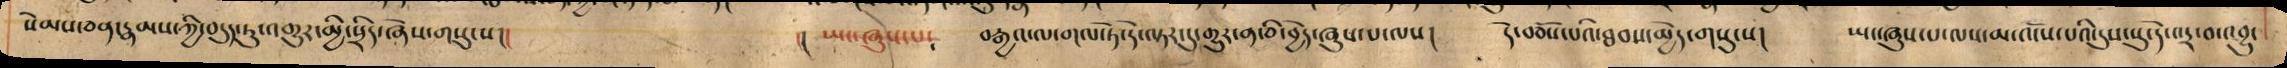སེམས་ཅན་རྣམས་ཀྱི་བདུད་ཏུ་འགྱུར་མྱི་སྲིད་ཞེས་གསུངས།། །། ཡང་ཞུས་པ་ བརྒྱའ་ལ་གལ་ཏེ་དེ་ལྟར་དུ་གྱུར་ན་ཅི་བྱེད་ཞུས་པ་ལས། དེ་བཅོས་པའི་ཐབས་མྱེད་གསུངས། ཡང་ཞུས་པ་ལས་མ་འོངས་པའི་དུས་སུ་དེ་འདྲ་བ་འབྱུང
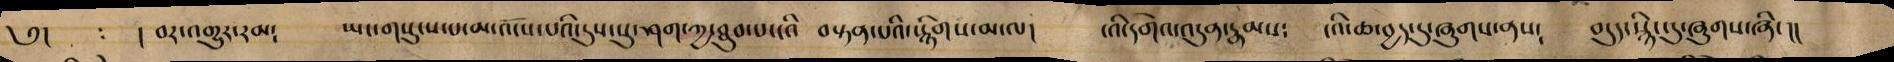༅། ། བར་འགྱུར་རམ་ ཡང་གསུངས་པ་མ་འོངས་པའི་དུས་སུ་ཤག་ཀྱ་ཐུབ་པ་ངའི བསྟན་པའི་སྙིགས་མ་ལ། ངའི་དགེའ་འདུན་རྣམས་ ངའི་ཆབྱད་དུ་ཞུགས་ནས་ བདུད་སྣིང་དུ་ཞུགས་ཞིང།།
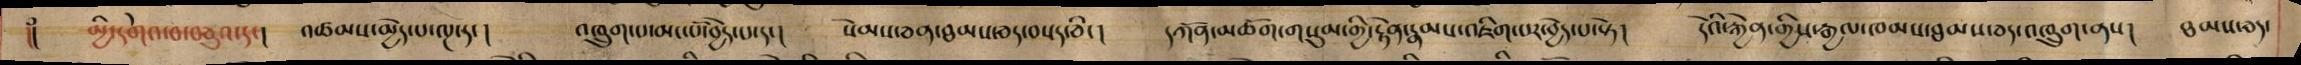།། མྱི་དགེའ་བ་བཅུའ་དང། འཚམས་མྱེད་པ་ལྔ་དང། འཁྲུག་པ་མང་པོ་བྱེད་པ་དང། སེམས་ཅན་ཐམས་ཅད་བསད་ཅིང། དཀོན་མཆོག་གསུམ་གྱི་རྟེན་རྣམས་འཇིག་པར་བྱེད་པ་སྟེ། དེའི་རྐྱེན་གྱིས་རྒྱལ་ཁམས་ཐམས་ཅད་འཁྲུག་ནས། ཐམས་ཅད་
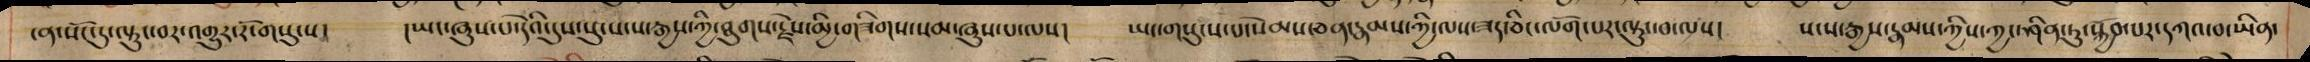ངན་སོང་དུ་ལྟུང་བར་འགྱུར་རོ་གསུངས། །ཡང་ཞུས་པ་དེའི་དུས་སུ་སངས་རྒྱས་ཀྱི་ཐུགས་རྗེས་མྱི་གཟིགས་སམ་ཞུས་པ་ལས། ཡང་གསུངས་པ་སེམས་ཅན་རྣམས་ཀྱི་ལས་ཟད་ཅིང་ལོག་པར་ལྟུང་བ་ལས། སངས་རྒྱས་རྣམས་ཀྱིས་ཀྱང་ཤིན་ཏུ་སྐྱོབ་པར་དཀའ་བ་ཡིན་
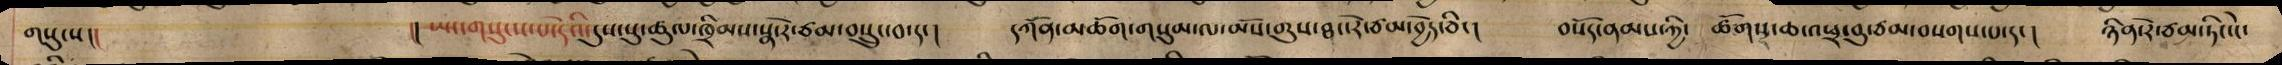གསུངས།། །། ཡང་གསུངས་པ་དེའི་དུས་སུ་ཚུལ་ཁྲིམས་སྣ་རེ་ཙམ་བསྲུང་བ་དང། དཀོན་མཆོག་གསུམ་ལ་མོས་གུས་ཐང་རེ་ཙམ་བྱེད་ཅིང། བསོད་ནམས་ཀྱི་ ཚོགས་ཆ་འཕྲ་བུ་ཙམ་བསགས་པ་དང། ཉིན་རེ་ཙམ་ཏིང་ངེ་
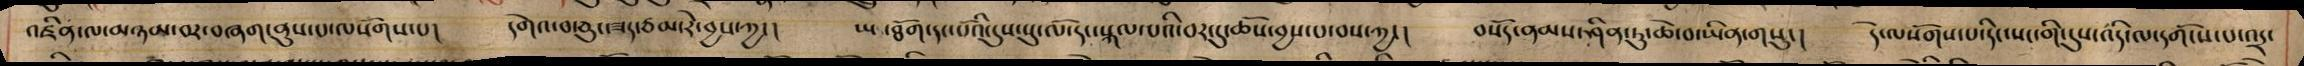འཛིན་ལ་མཉམ་བར་བཞག་ནུས་ལསོགས་པ། དགེའ་བ་ཅུང་ཟད་ཙམ་རེ་བྱས་ཀྱང། ཡ་ཐོག་དང་པོའི་དུས་སུ་ལོ་དང་སྐལ་པའི་བར་དུ་ཆོས་བྱས་པ་བས་ཀྱང། བསོད་ནམས་ཤིན་ཏུ་ཆེ་བ་ཡིན་གསུང། དེ་ལསོགས་པ་དིང་སང་གི་དུས་འདི་ལ་དགོངས་པ་འདྲ་
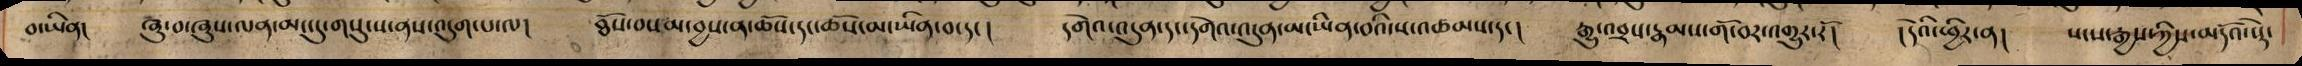བ་ཡིན། ཞུ་བ་ཞུས་ལན་མང་དུ་གསུངས་ནས་འདུག་པ་ལ། ཐོས་བསམ་བྱས་ན་ཆོས་དང་ཆོས་མ་ཡིན་བ་དང། དགེའ་འདུན་དང་དགེའ་འདུན་མ་ཡིན་བའི་ས་འཚམས་དང། རྒྱུ་འབྲས་རྣམས་གོ་བར་འགྱུར་རོ། །དེའི་ཕྱིར་ན། སངས་རྒྱས་ཀྱིས་མདོའ་སྡེ་
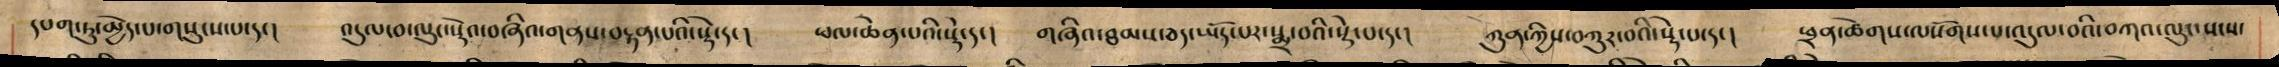དཔག་ཏུ་མྱེད་པ་གསུངས་པ་དང། འདུལ་བ་ལུང་སྡེའ་བཞིའ་གནས་བརྟན་པའི་སྡེ་དང། ཕལ་ཆེན་པའི་སྡེ་དང། གཞིའ་ཐམས་ཅད་ཡོད་པར་སྨྲ་བའི་སྡེ་པ་དང། ཀུན་ཀྱིས་བཀུར་བའི་སྡེ་པ་དང། ཕྲན་ཚེགས་ལསོགས་པ་འདུལ་བའི་བཀའ་ལུང་སངས་
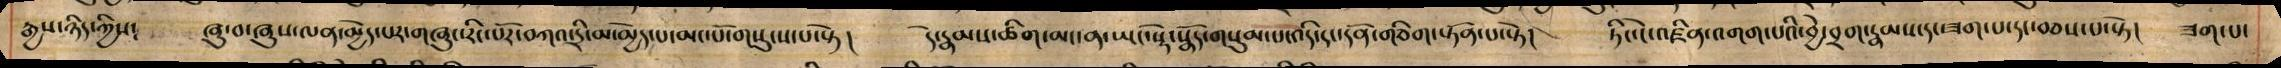རྒྱས་ཉིད་ཀྱིས་ ཞུ་བ་ཞཱུས་ལན་མྱེད་པར་གཞུང་རིང་པོར་བཀའ་དྲི་མ་མྱེད་པ་མང་པོ་གསུངས་པ་སྟེ། དེ་རྣམས་ཚིག་མང་ན་ཡང་སྡེ་སྣོད་གསུམ་པ་འདི་དང་དོན་གཅིག་སྟོན་པ་སྟེ། ཏིང་ངེ་འཛིན་འགག་པའི་བྱེ་བྲག་རྣམས་དང་ཟག་པ་དང་བཅས་པ་སྟེ། ཟག་པ་
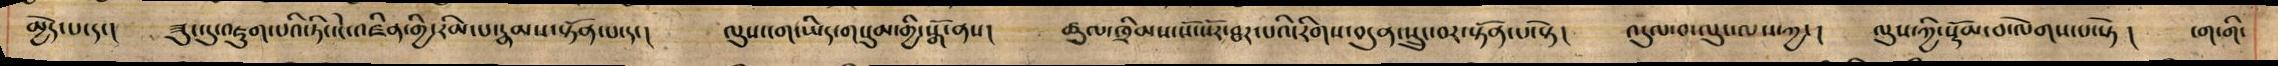མྱེད་པ་དང། ཟུང་དུ་འཇུག་པའི་ཏིང་ངེ་འཛིན་གྱི་རིམ་པ་རྣམས་སྟོན་པ་དང། ལུས་ངག་ཡིད་གསུམ་གྱི་སྒོ་ནས། ཚུལ་ཁྲིམས་སོ་སོར་ཐར་པའི་རིགས་བདུན་སྲུང་བར་སྟོན་པ་སྟེ། འདུལ་བ་ལུང་ལས་ཀྱང། ལུས་ཀྱི་སྡོམ་བ་ལེགས་པ་སྟེ ། ངག་གི་
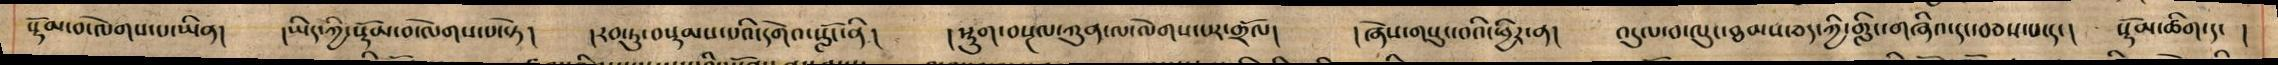སྡོམ་བ་ལེགས་པ་ཡིན། །ཡིད་ཀྱི་སྡོམ་བ་ལེགས་པ་སྟེ། །རབ་ཏུ་བསྡམས་པའི་དགེའ་སློང་ནི། །སྡུག་བསྔལ་ཀུན་ལ་ལེགས་པར་གྲོལ། །ཞེས་གསུང་བའི་ཕྱིར་ན། འདུལ་བ་ལུང་ཐམས་ཅད་ཀྱི་གླིང་གཞིའ་དང་བབས་པ་དང། སྡོམ་ཚིག་དང །
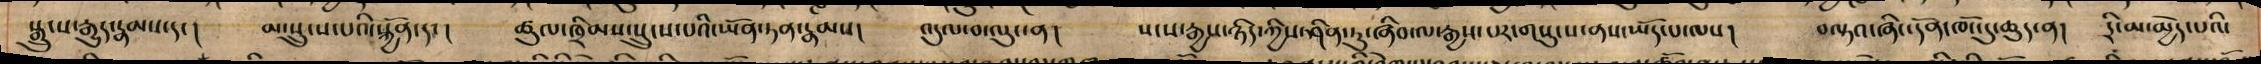སྒྲུ་ས་རྒྱུད་རྣམས་དང། མ་སྲུངས་པའི་སྐྱོན་དང། ཚུལ་ཁྲིམས་སྲུངས་པའི་ཡོན་ཏན་རྣམས། འདུལ་བ་ལུང་ན། སངས་རྒྱས་ཉིད་ཀྱིས་ཤིན་ཏུ་ཞིབ་ལ་རྒྱས་པར་གསུངས་ནས་ཡོད་པ་ལས། བལྟའ་ཞིང་དོན་ཁོང་དུ་ཆུད་ན། དྲི་མ་མྱེད་པའི་
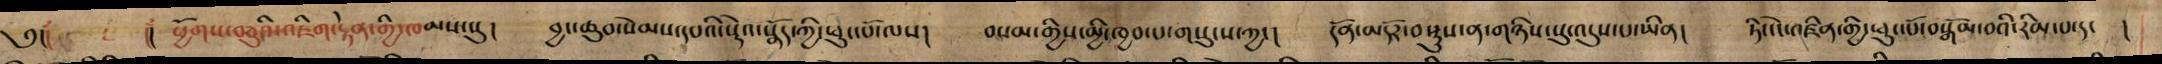༅།། །། ཕྱོགས་བཅུའི་འཇིག་རྟེན་གྱི་ཁམས་སུ། བྱང་ཆུབ་སེམས་དཔའི་སྡེའ་སྣོད་ཀྱི་ཕུང་པོ་ལས། བསམ་གྱིས་མྱི་ཁྱབ་པ་གསུངས་ཀྱང། དོན་མདོར་བསྡུས་ན་གཉིས་སུ་འདུས་པ་ཡིན། ཏིང་ངེ་འཛིན་གྱི་ཕུང་པོ་བསྒོམ་བའི་རིམ་པ་དང །
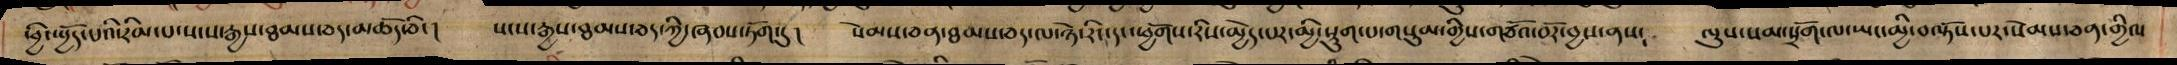ཕྱི་སྤྱོད་པའི་རིམ་པ་སངས་རྒྱས་ཐམས་ཅད་མཆོད་ཅིང། སངས་རྒྱས་ཐམས་ཅད་ཀྱི་ཞབས་ཏོག་དུ ། སེམས་ཅན་ཐམས་ཅད་ལ་ཉེ་རིང་དང་ཕྱོགས་རིས་མྱེད་པར་མྱི་སྡུག་པ་གསུམ་གྱིས་གཙོའ་བོར་བྱས་ནས་ ལུས་སམ་སྲོག་ལ་ཡང་མྱི་བལྟོས་པར་སེམས་ཅན་གྱིལ
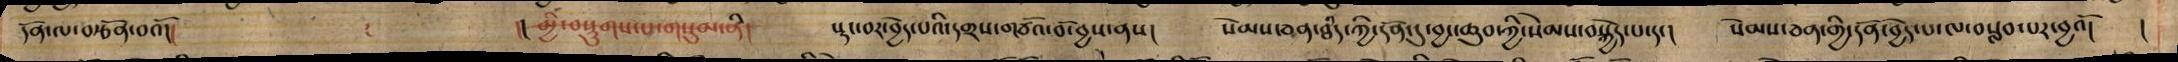དོན་ལ་བརྩོན་བའོ།། །། མྱི་བསྡུགས་པ་གསུམ་ནི། སྡང་བར་བྱེད་པའི་དགྲས་གཙོའ་བོ་བྱས་ནས། སེམས་ཅན་ཐཾད་ཀྱི་དོན་དུ་བྱང་ཆུབ་ཀྱི་སེམས་བསྐྱེད་པ་དང། སེམས་ཅན་གྱི་དོན་བྱེད་པ་ལ་བསླབ་པར་བྱའོ། །
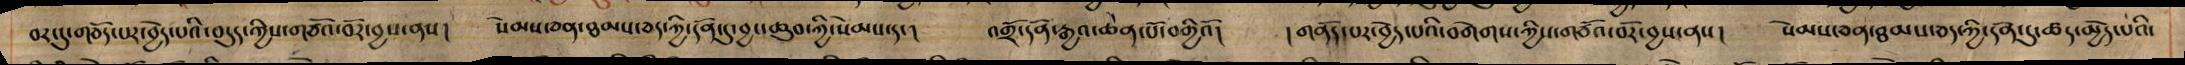བར་དུ་གཅོད་པར་བྱེད་པའི་བདུད་ཀྱིས་གཙོའ་བོར་བྱས་ནས། སེམས་ཅན་ཐམས་ཅད་ཀྱི་དོན་དུ་བྱང་ཆུབ་ཀྱི་སེམས་དང། འགྲོ་དོན་རྒྱའ་ཆེན་པོ་བགྱིའོ། །གནོད་པར་བྱེད་པའི་བགེགས་ཀྱིས་གཙོའ་བོར་བྱས་ནས། སེམས་ཅན་ཐམས་ཅད་ཀྱི་དོན་དུ་ཚད་མྱེད་པའི་
